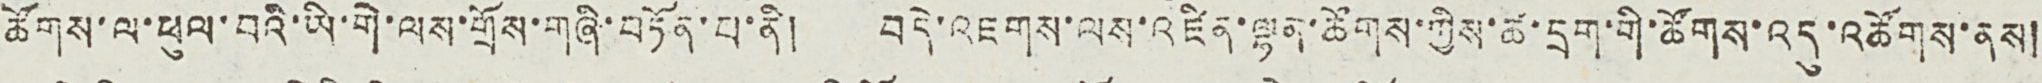ཚོགས་ལ་ཕུལ་བའི་ཡི་གེ་ལས་གྲོས་གཞི་བཏོན་པ་ནི། བདེ་འཇགས་ལས་འཛིན་ལྷན་ཚོགས་ཀྱིས་ཚ་དྲག་གི་ཚོགས་འདུ་འཚོགས་ནས།
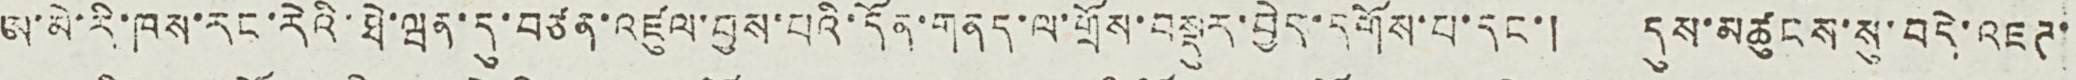ཨ་མེ་རི་ཁས་རང་རེའི་ཐེ་ཝན་དུ་བཙན་འཛུལ་བྱས་པའི་དོན་གནད་ལ་གྲོས་བསྡུར་བྱེད་དགོས་པ་དང་། དུས་མཚུངས་སུ་བདེ་འཇཊ་
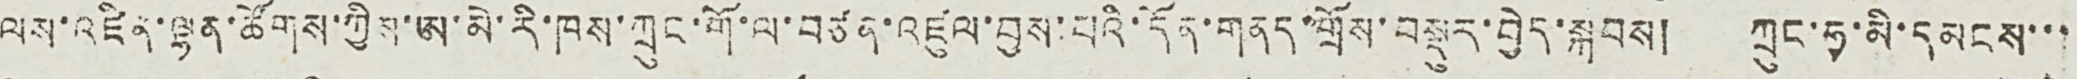ལས་འཛིན་ལྷན་ཚོགས་ཀྱིས་ཨ་མེ་རི་ཁས་ཀྲུང་གོ་ལ་བཙན་འཛུལ་བྱས་པའི་དོན་གནད་གྲོས་བསྡུར་བྱེད་སྐབས། ཀྲུང་ཧྭ་མི་དམངས་་་
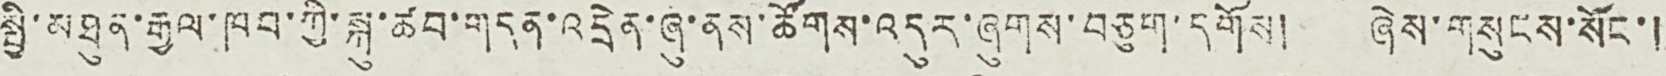སྤྱི་མཐུན་རྒྱལ་ཁབ་ཀྱི་སྐུ་ཚབ་གདན་འདྲེན་ཞུ་ནས་ཚོགས་འདུར་ཞུགས་བཅུག་དགོས། ཞེས་གསུངས་སོང་།
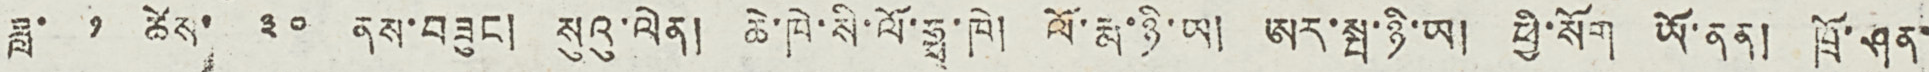ཟླ་ ༡ ཚེས་ ༣༠ ནས་བཟུང ། སུའུ་ལེན། ཆེ་ཁེ་སི་ལོ་ཧྥ་ཁེ། ལོ་རྨ་ཉི་ཡ། ཨར་སྤ་ཉི་ཡ། པྱི་སོག ཡོ་ནན། ཁྲོ་ཤན་
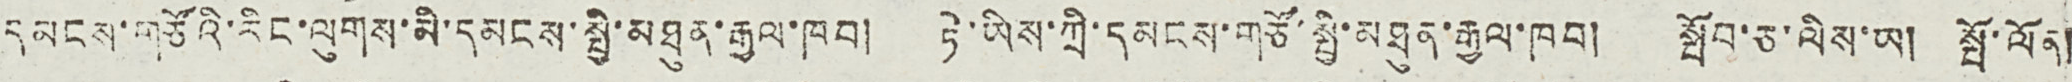དམངས་གཙོའི་རིང་ལུགས་མི་དམངས་སྤྱི་མཐུན་རྒྱལ་ཁབ། ཏེ་ཡིས་ཀྲི་དམངས་གཙོ་སྤྱི་མཐུན་རྒྱལ་ཁབ། སྤོབ་ཅ་ལིས་ཡ། སྤོ་ལོན།
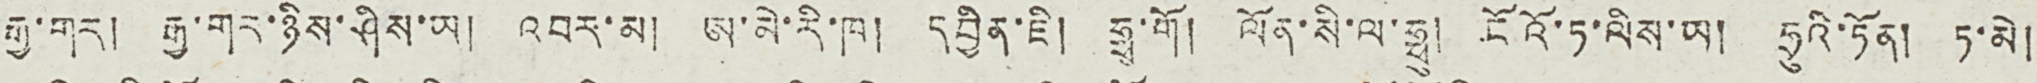རྒྱ་གར། རྒྱ་གར་ཉིས་ཤིས་ཡ། འབར་མ། ཨ་མེ་རི་ཁ། དབྱིན་ཇི། ཧྥ་གོ། ལོན་སི་ལ་ཧྥུ། ངོའོ་ཏ་ལིས་ཡ། ཧྲུའི་ཏོན། ཏ་མེ།
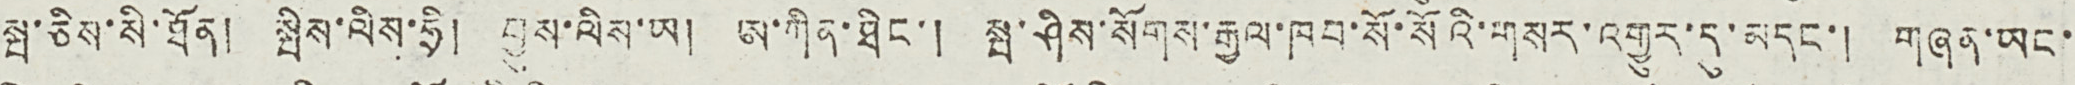སྤ་ཅིས་སི་ཐོན། སྤིས་ལིས་ཧྲི། བྱུས་ལིས་ཡ། ཨ་ཀིན་ཐིང་། སྤ་ཤིས་སོགས་རྒྱལ་ཁབ་སོ་སོའི་གསར་འགྱུར་དུ་མདང་། གཞན་ཡང་
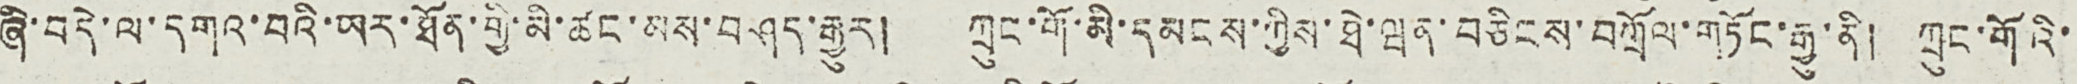ཞི་བདེ་ལ་དགའ་བའི་ཡར་ཐོན་གྱི་མི་ཚང་མས་བཤད་རྒྱུར། ཀྲུང་གོ་མི་དམངས་ཀྱིས་ཐེ་ཝན་བཅིངས་བཀྲོལ་གཏོང་རྒྱུ་ནི། ཀྲུང་གོའི་
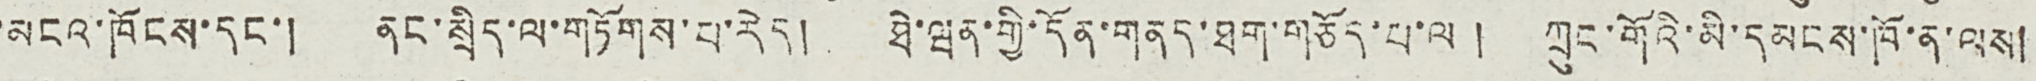མངའ་ཁོངས་དང་། ནང་སྲིད་ལ་གཏོགས་པ་རེད། ཐེ་ཝན་གྱི་དོན་གནད་ཐག་གཅོད་པ་ལ ། ཀྲུང་གོའི་མི་དམངས་ཁོ་ན་ལས།
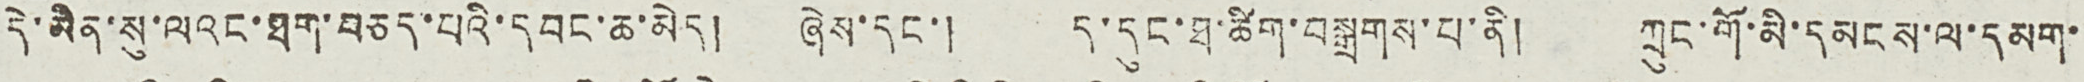དེ་མིན་སུ་ལའང་ཐག་བཅད་པའི་དབང་ཆ་མེད། ཞེས་དང་། ད་དུང་ཐ་ཚིག་བསྒྲགས་པ་ནི། ཀྲུང་གོ་མི་དམངས་ལ་དམག་
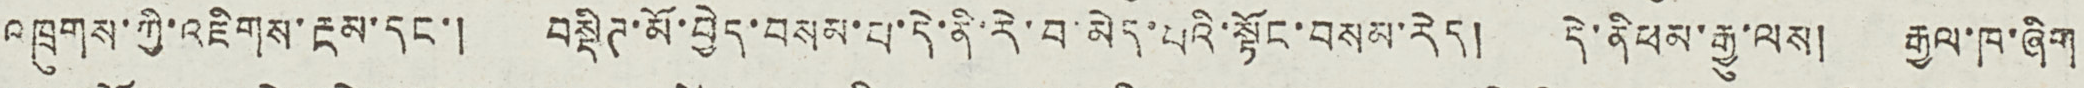འཁྲུགས་ཀྱི་འཇིགས་རྔམ་དང་། བསྡིཊ་མོ་བྱེད་བསམ་པ་དེ་ནི་རེ་བ་མེད་པའི་སྟོང་བསམ་རེད། དེ་ནི ཕམ་རྒྱུ་ལས། རྒྱལ་ཁ་ཞིག
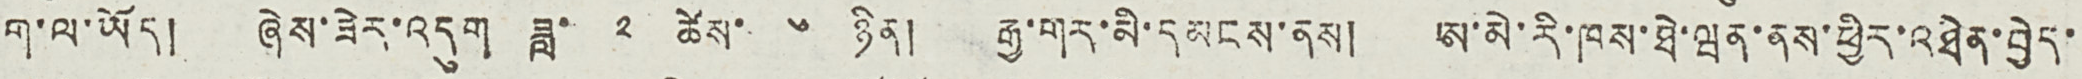ག་ལ་ཡོད། ཞེས་ཟེར་འདུག ཟླ་ ༢ ཚེས་ ༦ ཉིན། རྒྱ་གར་མི་དམངས་ནས། ཨ་མེ་རི་ཁས་ཐེ་ཝན་ནས་ཕྱིར་འཐེན་བྱེད་
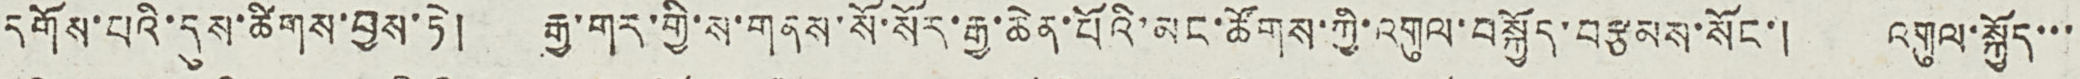དགོས་པའི་དུས་ཚིགས་བྱས་ཏེ། རྒྱ་གར་གྱི་ས་གནས་སོ་སོར་རྒྱ་ཆེན་པོའི་མང་ཚོགས་ཀྱི་འགུལ་བསྐྱོད་བརྩམས་སོང་། འགུལ་སྐྱོད་་་
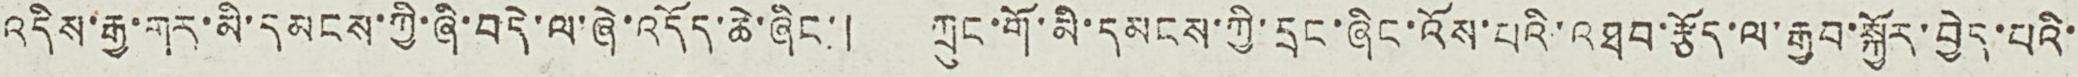འདིས་རྒྱ་གར་མི་དམངས་ཀྱི་ཞི་བདེ་ལ་ཞེ་འདོད་ཆེ་ཞིང་། ཀྲུང་གོ་མི་དམངས་ཀྱི་དྲང་ཞིང་འོས་པའི་འཐབ་རྩོད་ལ་རྒྱབ་སྐྱོར་བྱེད་པའི་
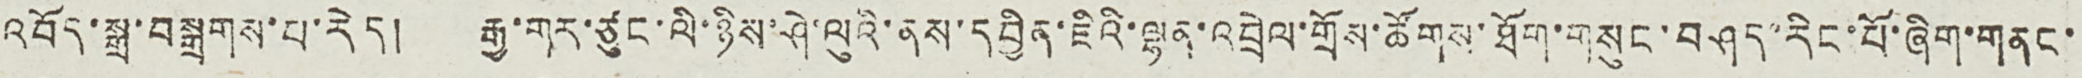འབོད་སྒྲ་བསྒྲགས་པ་རེད། རྒྱ་གར་ཙུང་ལི་ཉིས་ཤེ་ལུའི་ནས་དབྱིན་ཇིའི་ལྷན་འབྲེལ་གྲོས་ཚོགས་ཐོག་གསུང་བཤད་རིང་པོ་ཞིག་གནང་
